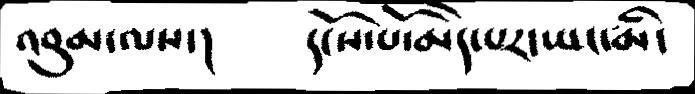འབུམ་ལས་།     དངོས་པོ་མེད་པར་ཡང་མི་
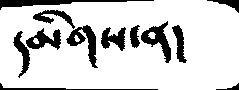དམིགས་ན།
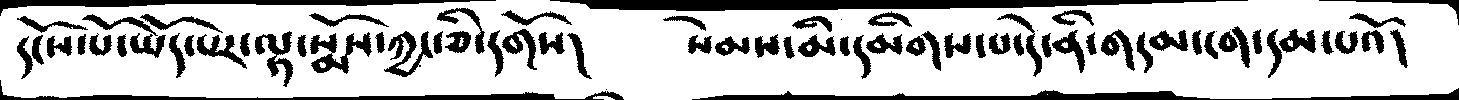དངོས་པོ་ཡོད་པར་ལྟ་སྨོས་ཀྱང་ཅི་དགོས།  སེམས་མི་དམིགས་པ་དེ་ནི་གདམ་ངག་དམ་པའོ།
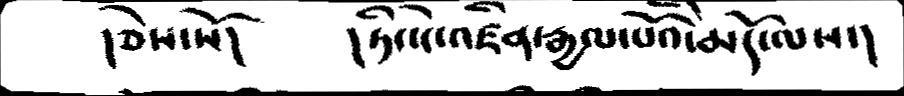།ཅེས་སོ།  །ཏིང་ངེ་འཛིན་རྒྱལ་པོའི་མདོ་ལས་།
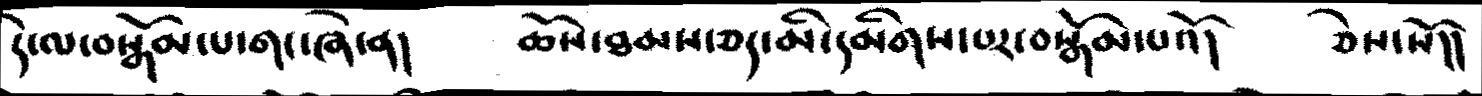དེ་ལ་བསྒོམ་པ་གང་ཞེ་ན།  ཆོས་ཐམས་ཅད་མི་དམིགས་པར་བསྒོམ་པའོ།  ཅེས་སོ།།
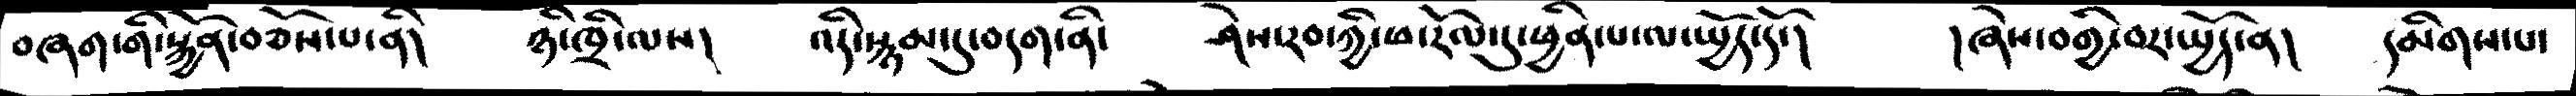བཞག་གི་སྐྱོན་བཅོས་པ་ནི།  ཉི་ཁྲི་ལས།  འདི་སྙམ་དུ་བདག་ནི་  ཤེས་རབ་ཀྱི་ཕ་རོལ་དུ་ཕྱིན་པ་ལ་སྤྱོད་དོ་།  །ཞེས་བགྱི་བར་སྤྱོད་ན།  དམིགས་པ་
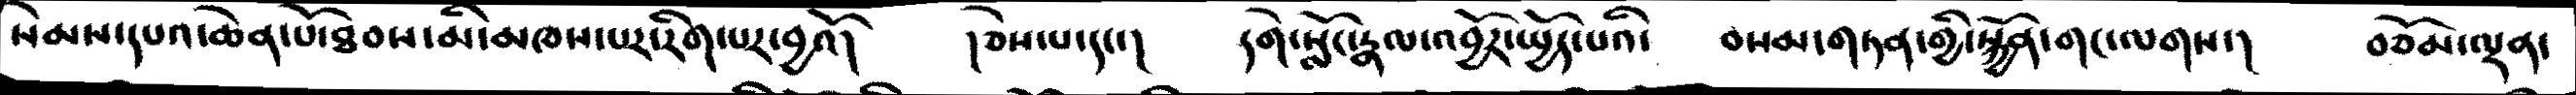སེམས་དཔའ་ཆེན་པོ་ཐབས་མི་མཁས་པར་རིག་པར་བྱའོ།  །ཅེས་པ་དང་།  དགེ་སློང་རྣལ་འབྱོར་སྤྱོད་པའི་  བསམ་གཏན་གྱི་སྐྱོན་གང་ལགས་།  བཅོམ་ལྡན་
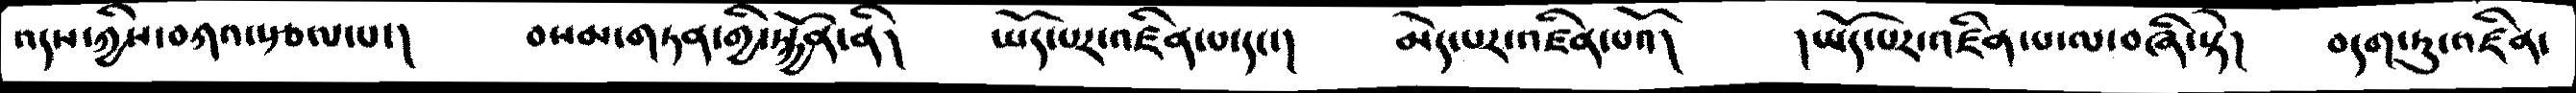འདས་ཀྱིས་བཀའ་སྩལ་པ་།  བསམ་གཏན་གྱི་སྐྱོན་ནི།  ཡོད་པར་འཛིན་པ་དང་།  མེད་པར་འཛིན་པའོ།  །ཡོད་པར་འཛིན་པ་ལ་བཞི་སྟེ།  བདག་ཏུ་འཛིན་
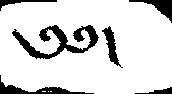༄༅།
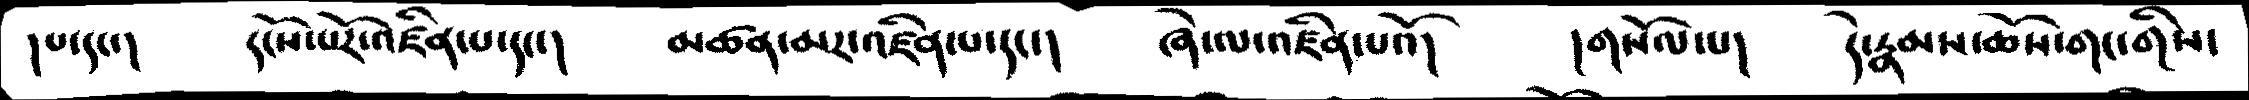།པ་དང་།     དངོས་པོར་འཛིན་པ་དང་།     མཚན་མར་འཛིན་པ་དང་།     ཞེ་ལ་འཛིན་པའོ།     །གསོལ་པ།     དེ་རྣམས་ཆོས་གང་གིས་
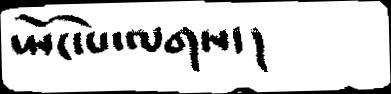སྤོང་པ་ལགས་།
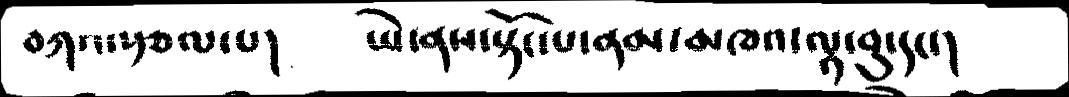བཀའ་རྩལ་པ།     ཡེ་ནས་སྟོང་པ་ནམ་མཁའ་ལྟ་བུ་དང་།
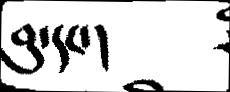བུ་དང་།
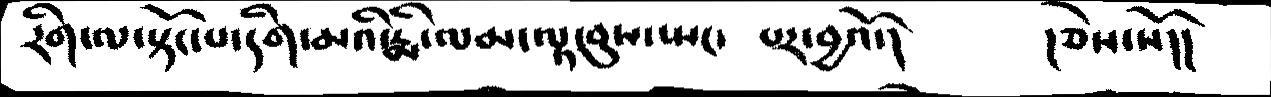རིག་ལ་སྟོང་པ་རིགམའི་རྨི་ལམ་ལྟ་བུས་སྤང་  པར་བྱའོ་།    །ཅེས་སོ།།
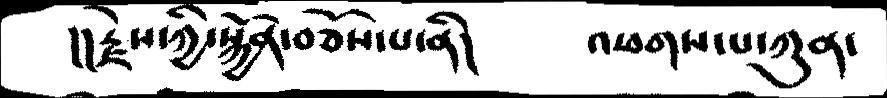།།རྗེས་ཀྱི་སྐྱོན་བཅོས་པ་ནི།  འཕགས་པ་ཀུན་
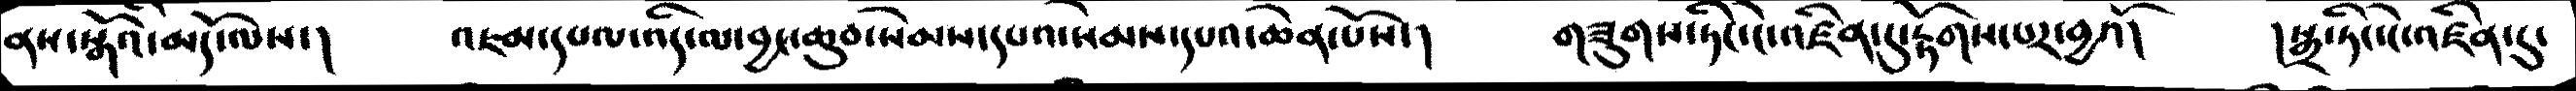ནས་སྒོའི་མདོ་ལས་།   འཇམ་དཔལ་འདི་ལ་བྱ་ཆུབ་སེམས་དཔའི་སེམས་དཔའ་ཆེན་པོས་།  གཟུགས་ཏིང་ངེ་འཛིན་དུ་རྟོགས་པར་བྱའོ།  །སྒྲ་ཏིང་ངེ་འཛིན་དུ་
